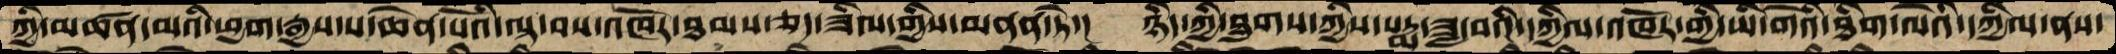ཀྱི་མཚན་མའི་ཕྱག་རྒྱས་པ་ཆེན་པོའི་ལྟ་བས་འཁོར་ཐམས་ཅད་ཟིལ་གྱིས་མནན་ཏེ་།  ཉིད་ཀྱི་ཐུགས་ཀྱིས་པདྨ་ཟླ་བའི་དཀྱིལ་འཁོར་གྱི་ཡི་གེའི་ཐིག་ལེའི་དཀྱིལ་ནས་
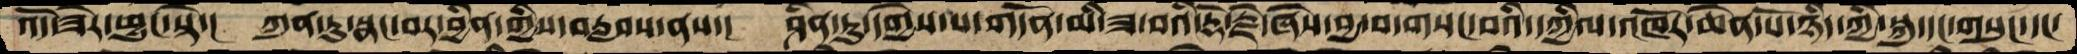འོད་ཟེར་ཕྱུང་སྟེ་།  ཀུན་ཏུ་སྣང་བར་བྱིན་གྱིས་བརླབས་ནས་།  ཤིན་ཏུ་དགྱེས་པ་གདོན་མི་ཟ་བའི་རྡོ་རྗེ་ཞེས་བྱ་བ་གསང་བའི་དཀྱིལ་འཁོར་ཆེན་པོ་ཉིད་ཀྱི་སྐུ་དང་གསུང་དང་
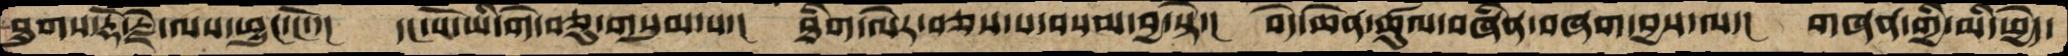ཐུགས་རྡོ་རྗེ་ལས་ཕྱུང་ངོ་་།  དང་པོ་ཡི་གེ་བཅུ་གསུམ་པ་།  ཐིག་ལེར་བཅས་པ་བསམ་བྱ་སྟེ་།  བདེ་ཆེན་ཚུལ་བཞིན་བཞག་བྱས་ལ་།  གཞན་གྱི་མི་ཕྱེད་
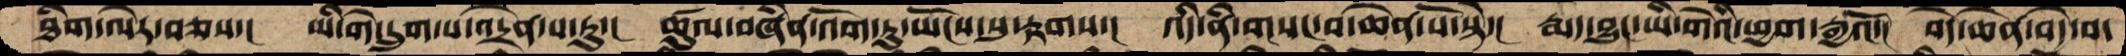ཐེག་ལེར་བཅས་།  ཡི་གེ་དྲུག་པ་འདྲེན་པ་རུ་།  ཚུལ་བཞིན་འོག་ཏུ་ཡོངས་སུ་རྟགས་།  འདི་ནི་གསང་བ་ཆེན་པོ་སྟེ་།  རྨད་བྱུང་ཡི་གེའི་ཕྱག་རྒྱའོ་།  བདེ་ཆེན་བདེ་བ་
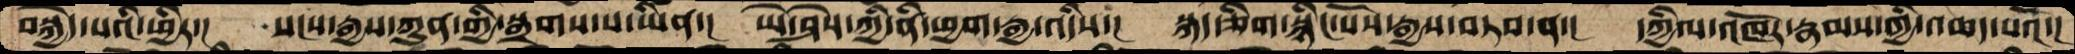བསྐྱེད་པའི་ཕྱིར་།   སངས་རྒྱས་ཀུན་གྱི་སྒྲགས་པ་ཡིན་།  ཡེ་ཤེས་ཀྱི་ནི་ཕྱག་རྒྱ་འདིས་།  སྐད་ཅིག་སྙིང་པོས་རྒྱས་བཏབ་ན་།  དཀྱིལ་འཁོར་རྣམས་ཀྱི་འཆད་པའོ་།
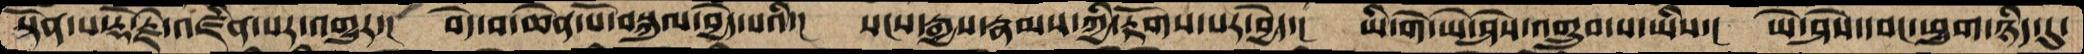སྟོན་པ་རྡོ་རྗེ་འཛིན་པར་འགྱུར་།  བདེ་བ་ཆེན་པོ་བསྐུལ་བྱེད་པའི་།  སངས་རྒྱས་རྣམས་ཀྱི་རྟོགས་པར་བྱེད་།  ཡི་གེ་ཡེ་ཤེས་འགྲུབ་པ་ཡིས་།  ཡེ་ཤེས་དབང་ཕྱུག་ཉིད་དུ་
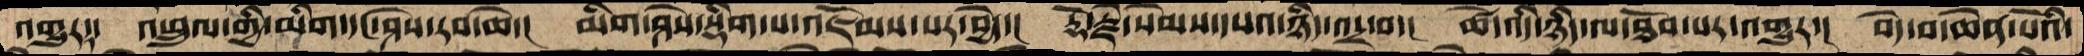འགྱུར་།  འཕྲུལ་གྱི་མིག་དང་ཤེས་རབ་ཆེ་།  མིག་ཤེས་སྡིག་པ་འཇོམས་པར་བྱེད་།  རྡོ་རྗེ་སེམས་དཔའ་ཉིད་འདྲ་བ་།  ཚེ་འདི་ཉིད་ལ་ཐོབ་པར་འགྱུར་།  བདེ་བ་ཆེན་པོའི་
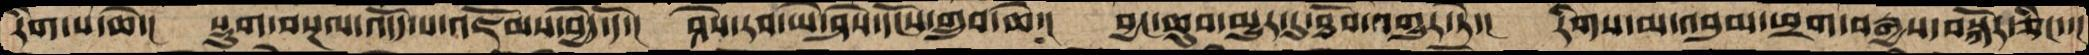རིག་པ་ཆེ་།  སྡུག་བསྔལ་འདོད་པ་འཇོམས་བྱེད་དོ་།  ཤེས་རབ་ཡེ་ཤེས་དངོས་གྲུབ་ཆེ་།  བྱང་ཆུབ་མྱུར་དུ་ཐོབ་འགྱུར་ཏེ་།  རིགས་མ་འབུམ་ཕྲག་བརྒྱས་བསྐོར་ཅིང་་།
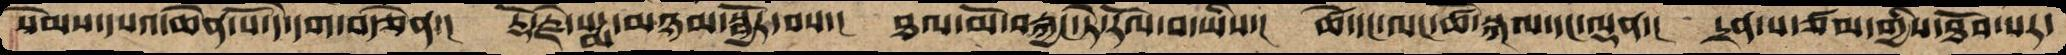སེམས་དཔའ་ཆེན་པོ་དེ་དག་བརྩོན་།  རྡོ་རྗེ་པདྨ་མཉམ་སྦྱོར་བས་།  ཐལ་མོ་བརྐྱང་ཏེ་རོལ་བ་ཡིས་།  ཚེ་དང་ལང་ཚོ་སྐལ་དང་ལྡན་།  དྲན་པ་ཙམ་གྱིས་ཐོབ་པར་
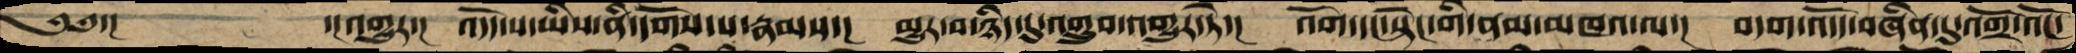༄༅་།   ་།འགྱུར་།  འདོད་པ་ཡིས་ནི་དགོས་པ་རྣམས་།  མྱུར་བ་ཉིད་དུ་འགྲུབ་འགྱུར་ཏེ་།  འོག་དང་སྟེང་གི་ནམ་མཁའ་ལ་།   བདག་འདོད་བཞིན་དུ་འགྲོ་འོང་
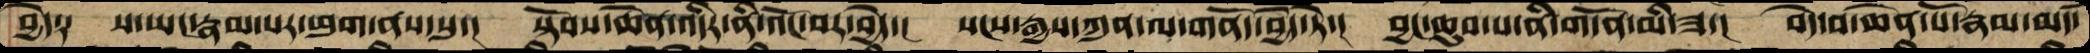བྱེད༑  ས་ཡང་རྣམ་པར་ཕུག་ནས་སུ་།  སྟོབས་ཆེན་འདིར་ནི་འོང་བར་བྱེད་།  སངས་རྒྱས་ཀུན་ལ་གནོད་བྱེད་ཏེ་།  བྱང་ཆུབ་པ་ནི་གདོན་མི་ཟ་།  བདེ་བ་ཆེན་པོ་རྣམ་མཛད་
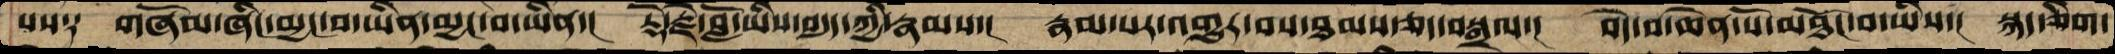པས།༑  གཞོམ་ཞིང་མྱང་བ་ཡིན་མྱང་བ་ཡིན་།  རྡོ་རྗེ་བློ་ཡིས་བདུད་ཀྱི་རྣམས་།  རྣམ་པར་འགྱུར་བས་ཐམས་ཅད་བསྒྲལ་།  བདེ་བ་ཆེན་པོ་མཐོང་བ་ཡིས་།  སྐད་ཅིག་
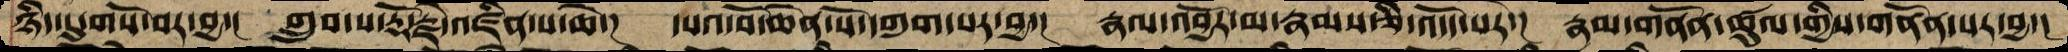ཉིད་དུ་གསོ་བར་བྱ་།  གྲུབ་པ་རྡོ་རྗེ་འཛིན་པ་ཆེ་།  དཔའ་བོ་ཆེན་པོ་དགུག་པར་བྱ་།  རྣལ་འབྱོར་མ་རྣམས་ཅི་འདོད་པར་།  རྣམ་གནོན་ཚུལ་གྱིས་གནོན་པར་བྱ་།
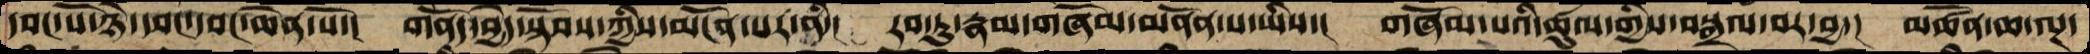དབང་པོ་ཉེ་དབང་དབང་ཆེན་པོ་།  གནོད་བྱེད་སྟོབས་ཀྱིས་མངོན་པར་ནི་།  རབ་ཏུ་རྣམ་གཞོམ་མནོན་པ་ཡིས་།  གཞོམ་པའི་ཚུལ་གྱིས་བསྒྲལ་བར་བྱ་།  མཚོན་ཆ་ལྔ་
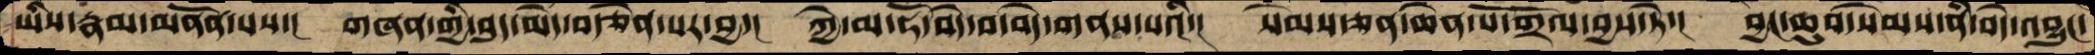ཡིས་རྣམ་མནོན་པས་།  གཞན་གྱི་བུད་མེད་བརྩེན་པར་བྱ་།  ཀྱེ་མ་ཧོ་བདེ་བ་བདེ་གནས་པའི་།  སེམས་ཅན་ཆེན་པོ་གྲོལ་བྱས་ཏེ་།  བྱང་ཆུབ་སེམས་ནི་བདེ་འབྱུང་
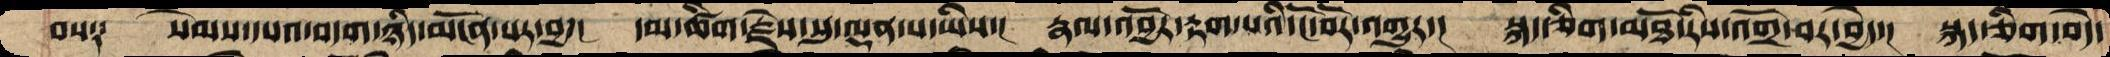བས༑   སེམས་དཔའ་བདག་ཉིད་མངོན་པར་བྱ་།  དམ་ཚིག་རྗེས་སུ་ལྡན་པ་་ཡིས་།  རྣལ་འབྱོར་རྟོག་པའི་ངོ་བོར་འགྱུར་།  སྐད་ཅིག་མཐོ་རིས་འགྲོ་བར་བྱེད་།  སྐད་ཅིག་བདེ་
